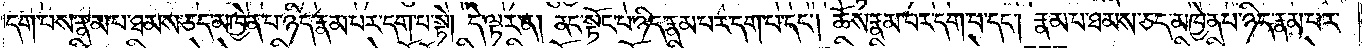དག་པས་རྣམ་པ་ཐམས་ཅད་མཁྱེན་པ་ཉིད་རྣམ་པར་དག་པ་སྟེ། དེ་ལྟར་ན། ནང་སྟོང་པ་ཉིད་རྣམ་པར་དག་པ་དང༌། ཆོས་རྣམ་པར་དག་པ་དང༌། རྣམ་པ་ཐམས་ཅད་མཁྱེན་པ་ཉིད་རྣམ་པར་
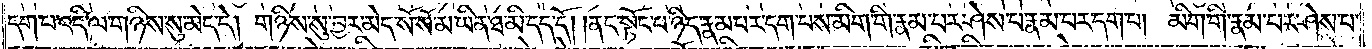དག་པ་འདི་ལ་གཉིས་སུ་མེད་དེ། གཉིས་སུ་བྱར་མེད་སོ་སོ་མ་ཡིན་ཐ་མི་དད་དོ། །ནང་སྟོང་པ་ཉིད་རྣམ་པར་དག་པས་མིག་གི་རྣམ་པར་ཤེས་པ་རྣམ་པར་དག་པ། མིག་གི་རྣམ་པར་ཤེས་པ་
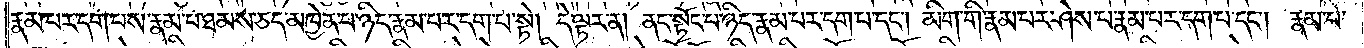རྣམ་པར་དག་པས་རྣམ་པ་ཐམས་ཅད་མཁྱེན་པ་ཉིད་རྣམ་པར་དག་པ་སྟེ། དེ་ལྟར་ན། ནང་སྟོང་པ་ཉིད་རྣམ་པར་དག་པ་དང༌། མིག་གི་རྣམ་པར་ཤེས་པ་རྣམ་པར་དག་པ་དང༌། རྣམ་པ་
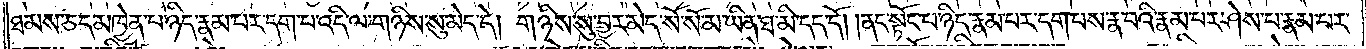ཐམས་ཅད་མཁྱེན་པ་ཉིད་རྣམ་པར་དག་པ་འདི་ལ་གཉིས་སུ་མེད་དེ། གཉིས་སུ་བྱར་མེད་སོ་སོ་མ་ཡིན་ཐ་མི་དད་དོ། །ནང་སྟོང་པ་ཉིད་རྣམ་པར་དག་པས་རྣ་བའི་རྣམ་པར་ཤེས་པ་རྣམ་པར་
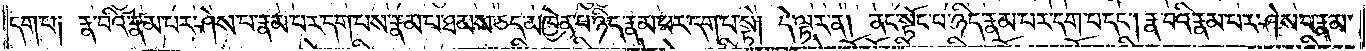དག་པ༑ རྣ་བའི་རྣམ་པར་ཤེས་པ་རྣམ་པར་དག་པས་རྣམ་པ་ཐམས་ཅད་མཁྱེན་པ་ཉིད་རྣམ་པར་དག་པ་སྟེ། དེ་ལྟར་ན། ནང་སྟོང་པ་ཉིད་རྣམ་པར་དག་པ་དང༌། རྣ་བའི་རྣམ་པར་ཤེས་པ་རྣམ་
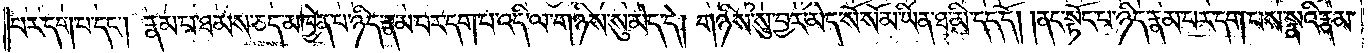པར་དག་པ་དང༌། རྣམ་པ་ཐམས་ཅད་མཁྱེན་པ་ཉིད་རྣམ་པར་དག་པ་འདི་ལ་གཉིས་སུ་མེད་དེ། གཉིས་སུ་བྱར་མེད་སོ་སོ་མ་ཡིན་ཐ་མི་དད་དོ། །ནང་སྟོང་པ་ཉིད་རྣམ་པར་དག་པས་སྣའི་རྣམ་
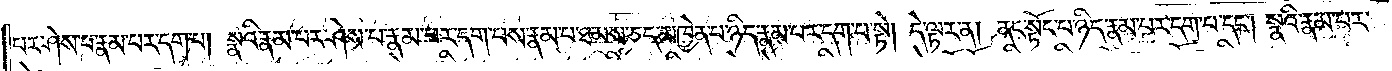པར་ཤེས་པ་རྣམ་པར་དག་པ། སྣའི་རྣམ་པར་ཤེས་པ་རྣམ་པར་དག་པས་རྣམ་པ་ཐམས་ཅད་མཁྱེན་པ་ཉིད་རྣམ་པར་དག་པ་སྟེ། དེ་ལྟར་ན། ནང་སྟོང་པ་ཉིད་རྣམ་པར་དག་པ་དང༌། སྣའི་རྣམ་པར་
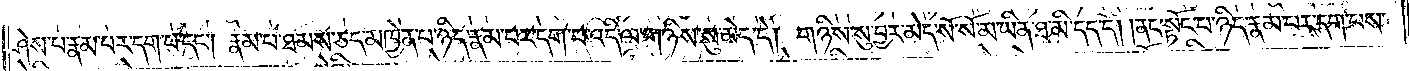ཤེས་པ་རྣམ་པར་དག་པ་དང༌། རྣམ་པ་ཐམས་ཅད་མཁྱེན་པ་ཉིད་རྣམ་པར་དག་པ་འདི་ལ་གཉིས་སུ་མེད་དེ། གཉིས་སུ་བྱར་མེད་སོ་སོ་མ་ཡིན་ཐ་མི་དད་དོ། །ནང་སྟོང་པ་ཉིད་རྣམ་པར་དག་པས་
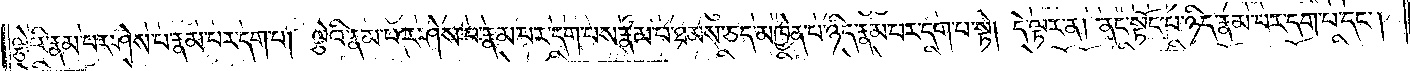ལྕེའི་རྣམ་པར་ཤེས་པ་རྣམ་པར་དག་པ། ལྕེའི་རྣམ་པར་ཤེས་པ་རྣམ་པར་དག་པས་རྣམ་པ་ཐམས་ཅད་མཁྱེན་པ་ཉིད་རྣམ་པར་དག་པ་སྟེ། དེ་ལྟར་ན། ནང་སྟོང་པ་ཉིད་རྣམ་པར་དག་པ་དང༌།
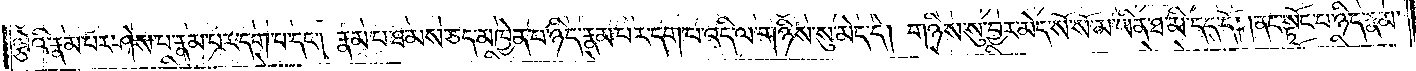ལྕེའི་རྣམ་པར་ཤེས་པ་རྣམ་པར་དག་པ་དང༌། རྣམ་པ་ཐམས་ཅད་མཁྱེན་པ་ཉིད་རྣམ་པར་དག་པ་འདི་ལ་གཉིས་སུ་མེད་དེ། གཉིས་སུ་བྱར་མེད་སོ་སོ་མ་ཡིན་ཐ་མི་དད་དོ། །ནང་སྟོང་པ་ཉིད་རྣམ་
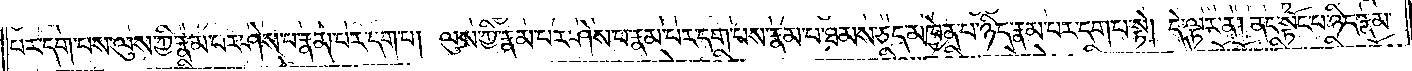པར་དག་པས་ལུས་ཀྱི་རྣམ་པར་ཤེས་པ་རྣམ་པར་དག་པ། ལུས་ཀྱི་རྣམ་པར་ཤེས་པ་རྣམ་པར་དག་པས་རྣམ་པ་ཐམས་ཅད་མཁྱེན་པ་ཉིད་རྣམ་པར་དག་པ་སྟེ། དེ་ལྟར་ན། ནང་སྟོང་པ་ཉིད་རྣམ་
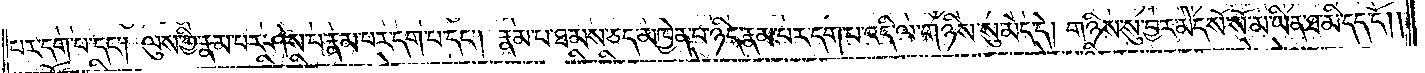པར་དག་པ་དང༌། ལུས་ཀྱི་རྣམ་པར་ཤེས་པ་རྣམ་པར་དག་པ་དང༌། རྣམ་པ་ཐམས་ཅད་མཁྱེན་པ་ཉིད་རྣམ་པར་དག་པ་འདི་ལ་གཉིས་སུ་མེད་དེ། གཉིས་སུ་བྱར་མེད་སོ་སོ་མ་ཡིན་ཐ་མི་དད་དོ། །
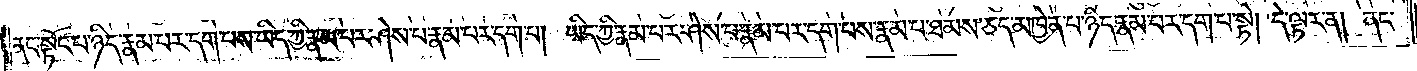ནང་སྟོང་པ་ཉིད་རྣམ་པར་དག་པས་ཡིད་ཀྱི་རྣམ་པར་ཤེས་པ་རྣམ་པར་དག་པ། ཡིད་ཀྱི་རྣམ་པར་ཤེས་པ་རྣམ་པར་དག་པས་རྣམ་པ་ཐམས་ཅད་མཁྱེན་པ་ཉིད་རྣམ་པར་དག་པ་སྟེ། དེ་ལྟར་ན། ནང་
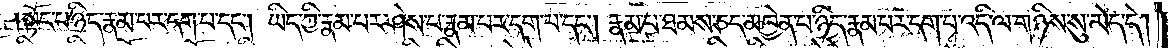སྟོང་པ་ཉིད་རྣམ་པར་དག་པ་དང༌། ཡིད་ཀྱི་རྣམ་པར་ཤེས་པ་རྣམ་པར་དག་པ་དང༌། རྣམ་པ་ཐམས་ཅད་མཁྱེན་པ་ཉིད་རྣམ་པར་དག་པ་འདི་ལ་གཉིས་སུ་མེད་དེ།
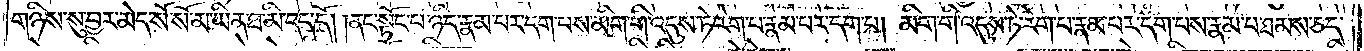གཉིས་སུ་བྱར་མེད་སོ་སོ་མ་ཡིན་ཐ་མི་དད་དོ། །ནང་སྟོང་པ་ཉིད་རྣམ་པར་དག་པས་མིག་གི་འདུས་ཏེ་རེག་པ་རྣམ་པར་དག་པ། མིག་གི་འདུས་ཏེ་རེག་པ་རྣམ་པར་དག་པས་རྣམ་པ་ཐམས་ཅད་
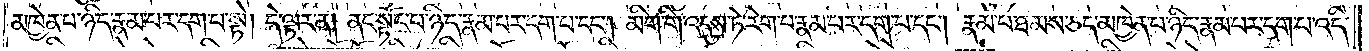མཁྱེན་པ་ཉིད་རྣམ་པར་དག་པ་སྟེ། དེ་ལྟར་ན། ནང་སྟོང་པ་ཉིད་རྣམ་པར་དག་པ་དང༌། མིག་གི་འདུས་ཏེ་རེག་པ་རྣམ་པར་དག་པ་དང༌། རྣམ་པ་ཐམས་ཅད་མཁྱེན་པ་ཉིད་རྣམ་པར་དག་པ་འདི་
